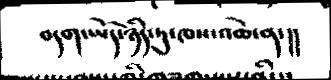བདག་ཡོད་ཉིད་ཏུ་ཁས་འཆེ་ན་།།
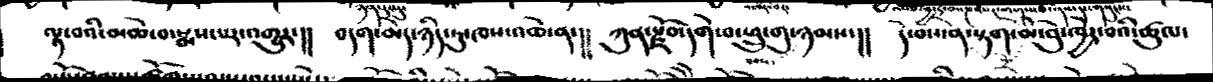ལྟ་བའི་མཆེ་བ་སྨས་པར་འགྱུར་།།  བདག་མེད་ཉིད་ཏུ་ཁས་འཆེ་ན་།།  ཀུན་རྫོབ་དགེ་པ་ཕྲུ་གུ་ཉམས་།།  དེ་བས་ན་སྟག་མི་བུ་ཁྱེར་བའི་ཚུལ་
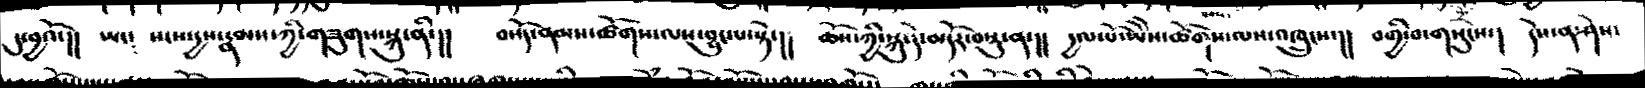དུ་བྱའོ་།།    ཡང༴   སངས་དྱས་རྣམས་ཀྱི་གཟུགས་སྐུ་ནི་།།  བསོད་ནམས་ཚོགས་ལས་བྱུང་པ་སྟེ་།།   ཆོས་ཀྱི་སྐུ་དེ་མདོར་བསྡུ་ན་།།   དྱལ་པོ་ཡེེས་ཚོགས་ལས་འཁྲུངས་།། བགྱི་བ་གསུངས་།   དེས་ན་ཤེས་
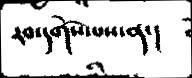རབ་དགོས་པས་ན་།
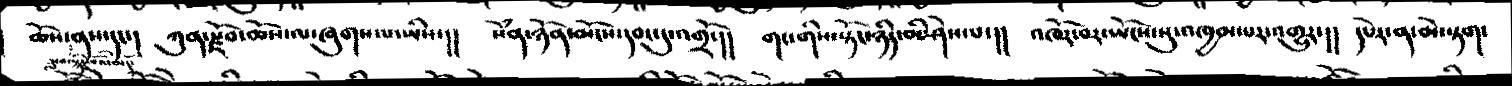ཆོས་ནས་དང་།  ཀུན་རྫོབ་ཆོས་ལ་ཞུགས་པ་ཡིས་།།  སེཾན་ཉོན་མོངས་དབང་དུ་འགྲོ་།།  གང་གིས་སྟོང་ཉིད་མི་ཤེས་པ་།།   འཁོར་བར་ཡོངས་སུ་འཁྱམ་པར་འགྱུར་།།  དཔེར་ན་མེ་སྟག་
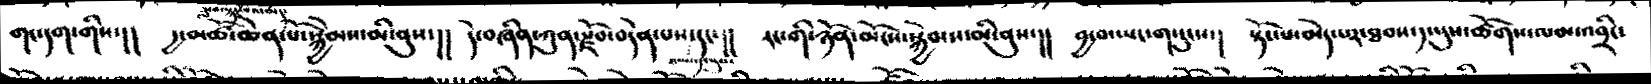གང་དག་གི་ས་།།  དྱ་མཚོ་ཆེན་པོ་སྐྱེམས་མི་ནུས་།།  དེ་བཞིན་ཀུན་རྫོབ་བདེན་པས་དང་།།  རང་གི་ཉོན་མོངས་སྐྱེམས་མི་ནུས་།།  བྱ་བ་ཡང་གསུངས་།   སྟོང་པ་མེད་པར་ཐབས་༡་པུས་ཚོགས་ལམ་འབྲིང་
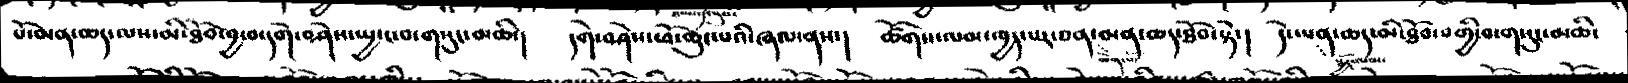པོ་མན་ཆད་ལས་མི་ཐོབ་བྱ་བ་དགེ་བཤེས་སྤྱ་ང་བ་གསུང་མཆི་།  དགེ་བཤེས་ཕོ་ཆུང་པའི་ཞལ་ནས་།   ཚོགས་ལམ་ཁྱད་པར་ཅན་མན་ཆད་ཐོབ་སྟེ་།    དེ་ཡན་ཆད་མི་ཐོབ་བགྱི་བ་གསུང་མཆི་
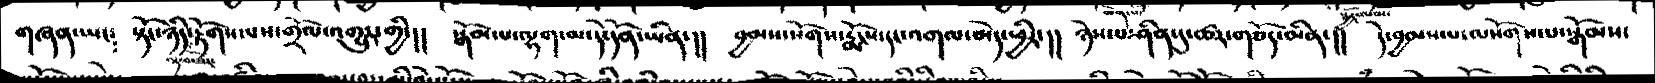གཞན་ཡང༴   སྟོང་ཉིད་རྟོགས་པས་གྲོལ་འགྱུར་གྱི་།།  སྒོམ་པ་ལྷག་མ་དེ་དོན་ཡིན་།།  བྱམས་སོགས་རྨོངས་དང་འགལ་མེད་ཕྱིར་།།  ཉེས་པ་ཤིན་དུ་ཚར་གཅོད་མིན་།།  དེ་བྱམས་པ་ལསོགས་པ་སྒོམས་
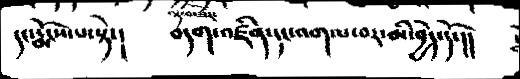དང་རྨོངས་པ་སྟེ་།   བདག་འཛིན་དང་འགལ་བར་མི་བྱེད་དོ་།།
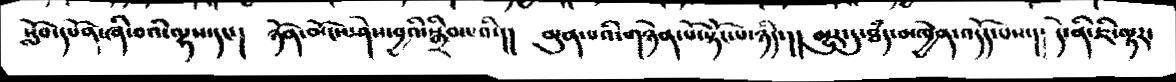སློབ་དཔོན་ཞི་བའི་ལྷས་དང་།  ཉོན་མོངས་ཤེས་བྱའི་སྒྲིབ་པའི་།།  མུན་པའི་གཉེན་པོ་སྟོང་པ་ཉིད་།།  མྱུར་དུ་ཐཾད་མཁྱེན་འདོད་པས་།།   དེ་ནི་ཇི་ལྟར་
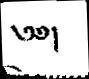༄༅།
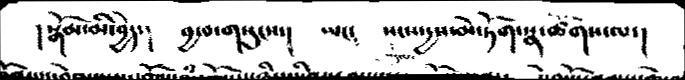། སྒོམ་མི་བྱེད་།     བྱ་བ་གསུངས་།   ཡང༴   སངས་དྱས་མེ་ཏོག་སྣ་ཚོགས་ལ་།
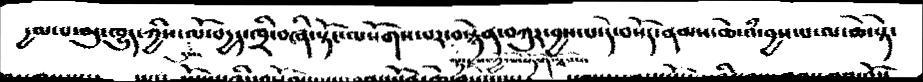དྱལ་པ་མུ་ཁྱུད་ཀྱིས་ལོ་བདྱད་ཁྲི་བཞི་སྟོང་ལསོགས་པར་བསྙེན་བཀུར་བྱས་པ་ད་ེབསོད་ནམས་ཆེ་འཾ་བྱས་པ་ལ་ཆེ་སྟེ་
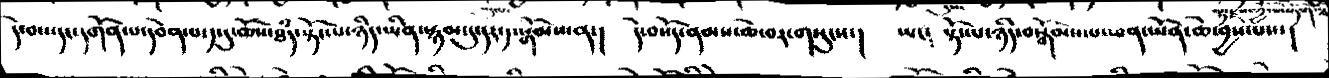དེ་བས་དང་དགོན་པ་དབེན་པ་༡་དུ་ཆོས་ཐཾད་སྟོང་པ་ཉིད་ཡིན་སྙམ་དུ་དར་༡་སྒོམས་ན་།    དེ་བསོད་ནམས་ཆེ་བར་གསུངས་།    ཡང༴   སྟོང་པ་ཉིད་བསྒོམས་པ་ཕན་ཡོན་ཆེ་བྱས་པས་།
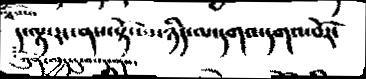ད་ལྟ་རང་ནས་སྟེང་པ་ཉིད་ལ་དགའ་དགའ་བོར་
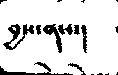བྱས་ནས་།
